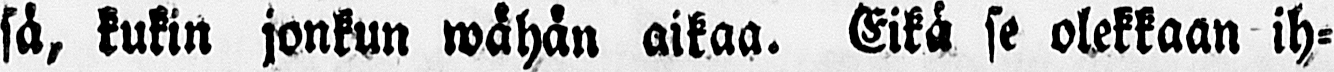sä, kukin jonkun wähän aikaa. Eikä se olekkaan ih-
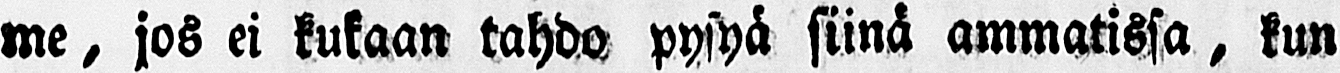me, jos ei kukaan tahdo pysyä siinä ammatissa, kun
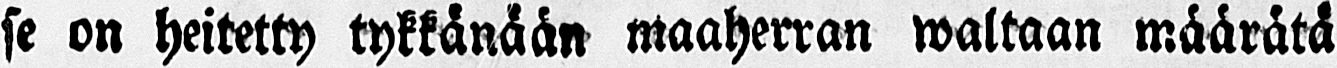se on heitetty tykkänään maaherran waltaan määrätä
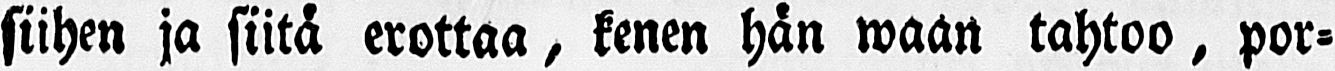siihen ja siitä erottaa, kenen hän waan tahtoo, por-
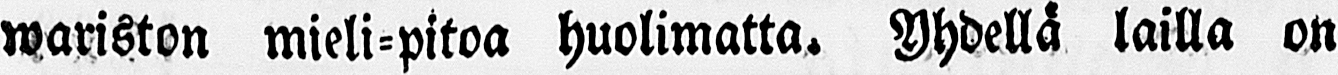wariston mieli-pitoa huolimatta. Yhdellä lailla on
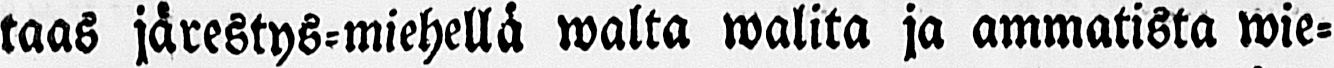taas järestys-miehellä walta walita ja ammatista wie-
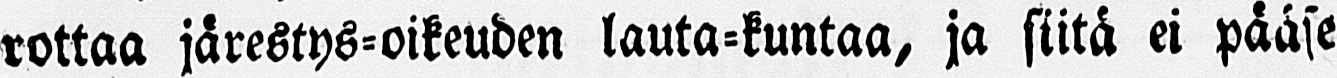rottaa järestys-oikeuden lauta-kuntaa, ja siitä ei pääse
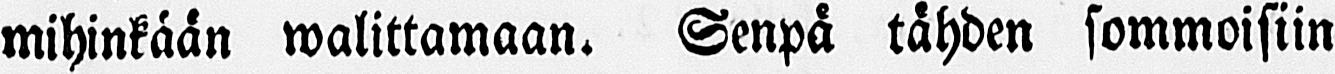mihinkään walittamaan. Senpä tähden lommoisiin
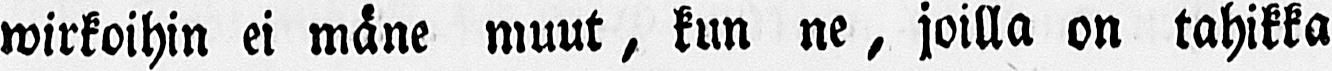wirkoihin ei mäne muut, kun ne, joilla on tahikka
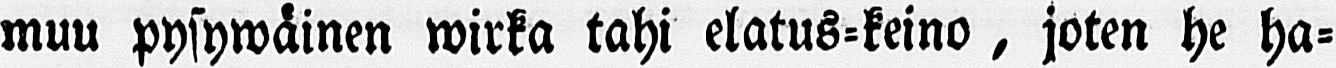muu pysywäinen wirka tahi elatus-keino, joten he ha-
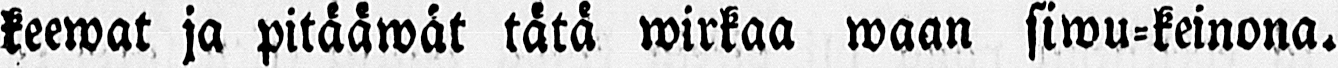keewat ja pitääwät tätä wirkaa waan siwu-keinona.
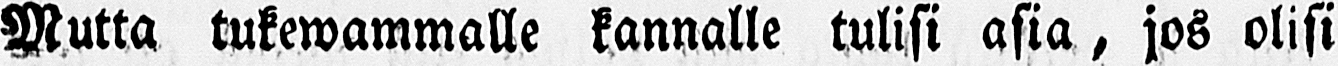Mutta tukewammalle kannalle tulisi asia, jos olisi
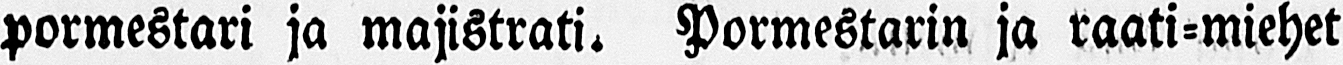pormestari ja majistrati. Pormestarin ja raati-miehet
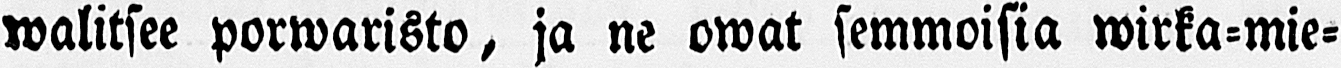walitsee porwaristo, ja ne owat semmoisia wirka-mie-
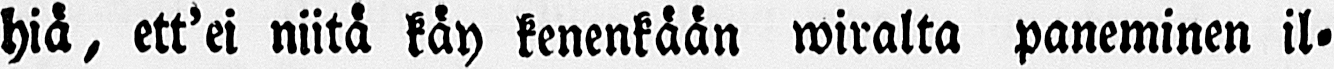hiä, ett'ei niitä käy kenenkään wiralta paneminen il-
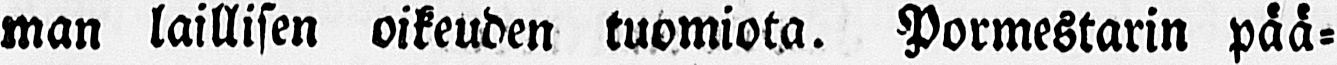man laillisen oikeuden tuomiota. Pormestarin pää-
